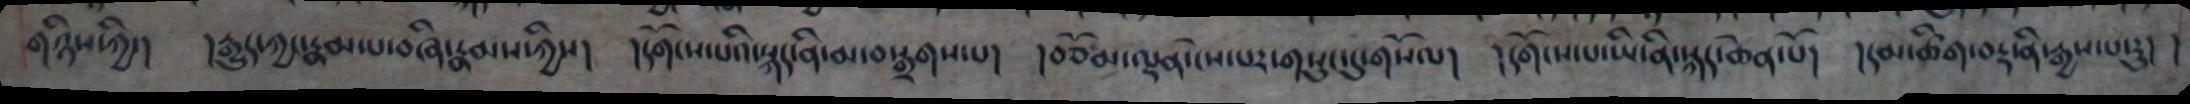གཉིས་ཀྱི་། །རྒྱུད་ཀྱང་རྣམ་པ་བཞི་རྣམས་ཀྱིས། །དགོངས་པའི་སྐད་ནི་མ་བསྒྲགས་པ། །བཅོམ་ལྡན་ངེས་པར་གསུང་དུ་གསོལ། །དགོངས་པ་ཡི་ནི་སྐད་ཆེན་པོ། །དམ་ཚིག་བརྡ་ནི་རྒྱས་པ་རུ། །
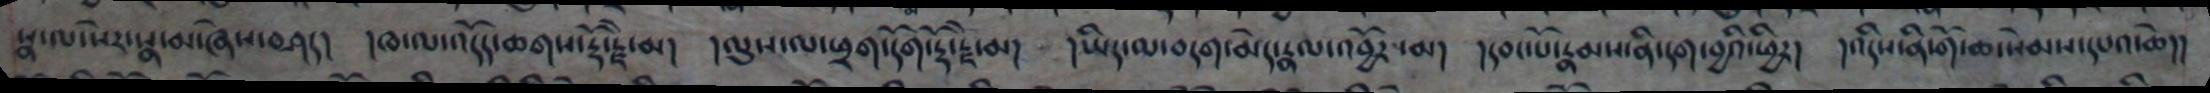སྣ་ལ་སེར་སྣ་མ་ཞེས་བཤད། །ཁ་ལ་འདོད་ཆགས་རྡོ་རྗེ་མ། །ལུས་ལ་ཕྲག་དོག་རྡོ་རྗེ་མ། །ཡིད་ལ་བདག་མེད་རྣལ་འབྱོར་མ། །དབང་པོ་རྣམས་ནི་དག་བྱའི་ཕྱིར། །འདིས་ནི་གོ་ཆ་སེམས་དཔའ་ཆེ།།
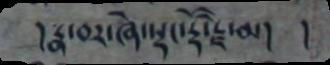།རྣ་བར་ཞེ་སྡང་རྡོ་རྗེ་མ། །
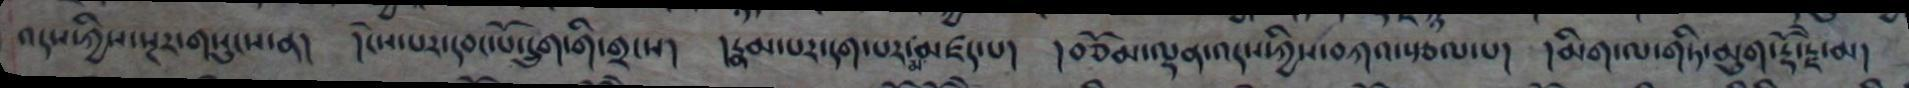འདས་ཀྱིས་སྔར་གསུངས་ན། །ངེས་པར་དབང་པོ་དྲུག་གི་གྲངས། །རྣམ་པར་དག་པར་མཛད་པ། །བཅོམ་ལྡན་འདས་ཀྱིས་བཀའ་སྩལ་པ། །མིག་ལ་གཏི་མུག་རྡོ་རྗེ་མ།
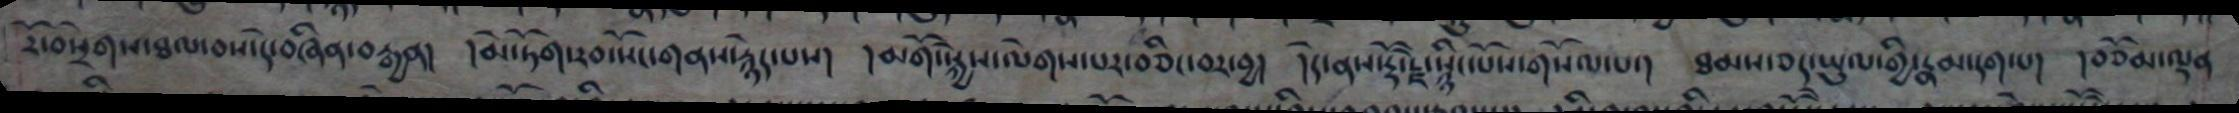རོ་བསྲེགས་ཐལ་བས་དེ་བཞིན་བརྒྱན། །མེ་ཏོག་རབ་སོང་གནས་རྙེད་པས། །མགོ་སྐྱེས་ལེགས་པར་བཅིང་བར་བྱ། །དེ་ནས་རྡོ་རྗེ་སྙིང་པོས་གསོལ་པ་། ཐམས་ཅད་ཡུལ་གྱི་རྣམ་དག་པ། །བཅོམ་ལྡན
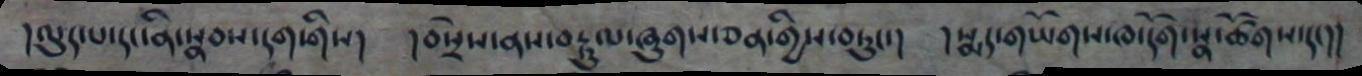།ལུད་པ་དང་ནི་སྣབས་དག་གིས། །བསྲེས་ནས་བརྟུལ་ཞུགས་ཅན་གྱིས་བཏུང་། །སྨད་གཡོགས་ཁ་དོག་སྣ་ཚོགས་དང་།།
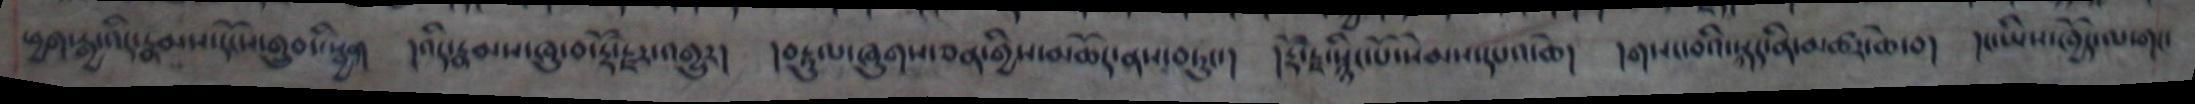ཕྱག་རྒྱ་འདི་རྣམས་དངོས་གྲུབ་སྦྱིན། །འདི་རྣམས་ཁུ་བ་རྡོ་རྗེར་འགྱུར། །བརྟུལ་ཞུགས་ཅན་གྱིས་མཆོད་ནས་བཏུང་། །རྡོ་རྗེ་སྙིང་པོ་སེམས་དཔའ་ཆེ། །གསང་བའི་སྐད་ནི་མཚར་ཆེ་བ། །ང་ཡིས་ཁྱོད་ལ་གང་
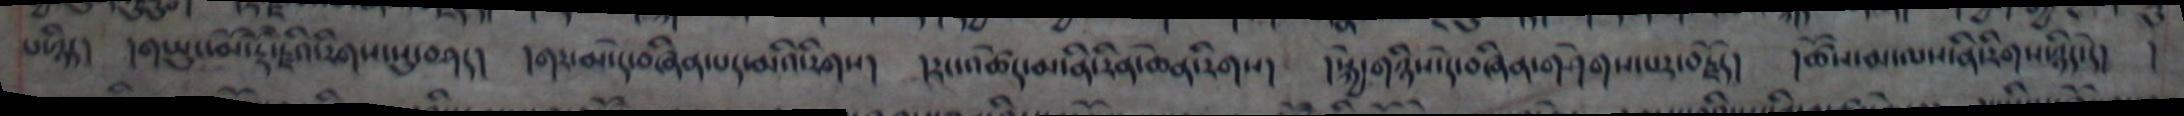པ་ཉིད། །གཡུང་མོ་རྡོ་རྗེའི་རིགས་སུ་བཤད། །གར་མ་དེ་བཞིན་པད་མའི་རིགས། །རང་འཚེད་མ་ནི་རིན་ཆེན་རིགས། །སྐྱེ་གཉིས་དེ་བཞིན་གཤེགས་པར་བརྗོད། །ཚོས་མ་ལས་ནི་རིགས་ཉིད་དེ། །
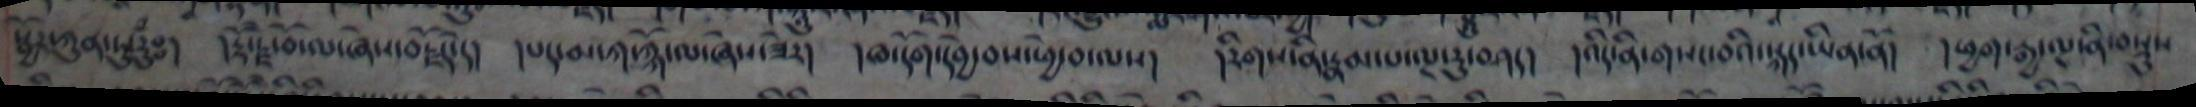སྦྱོར་ཀུན་ཏུ་རུཾཿ ། །རྡོ་རྗེ་བོ་ལ་ཞེས་བརྗོད་དེ། །པད་མ་ཀ་ཀྐོ་ལ་ཞེས་ཟེར། །ཁ་དོག་དབྱེ་བས་ཕྱེ་བ་ལས། །རིགས་ནི་རྣམ་པ་ལྔ་རུ་བཤད། །འདི་ནི་གསང་བའི་སྐད་ཡིན་ནོ། །ཕྱག་རྒྱ་ལྔ་ནི་བསྡུས
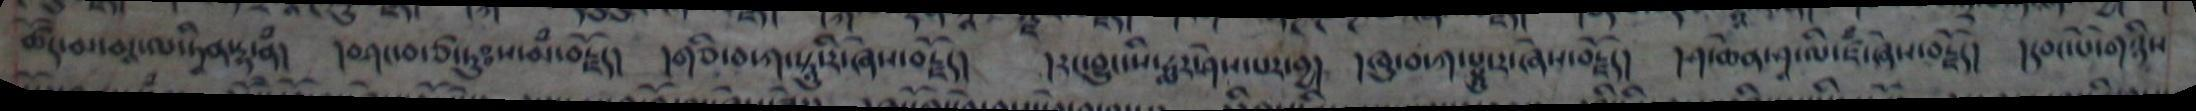ཚོད་མ་མཱ་ལ་ཏཱིན་དྷ་ནཾ། །བཤང་བ་ཙ་ཏུཿ ས་མཾ་བརྗོད། །གཅི་བ་ཀ་སྟཱུ་རི་ཞེས་བརྗོད། །རང་བྱུང་སི་ཧླར་ཤེས་པར་བྱ། །ཁུ་བ་ཀ་པཱུ་ར་ཞེས་བརྗོད། །ཤ་ཆེན་ཤཱ་མི་ཛཾ་ཞེས་བརྗོད། །དབང་པོ་གཉིས
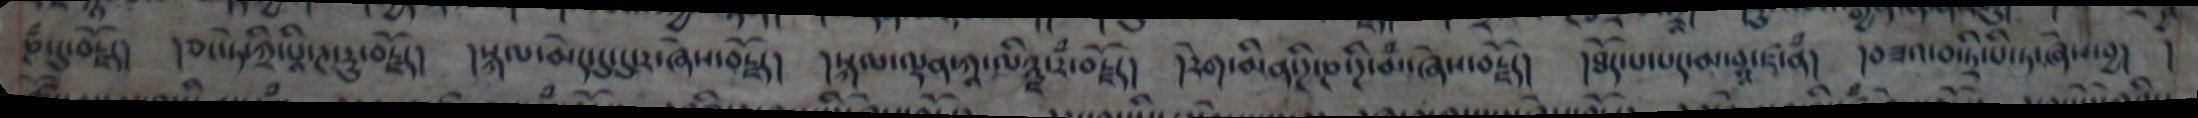ཎ་དུ་བརྗོད།   །ཅང་ཏེ་ཀྲི་པྰི་ཊ་རུ་བརྗོད།     དསྐལ་མེད་དུ་དུ་ར་ཞེས་བརྗོད།   །སྐལ་ལྡན་ཀྰ་ལིཉྫ་རཾ་བརྗོད།    ། རེག་མིན་ཌི་ཎ་ཌི་མཾ་ཞེས་བརྗོད།    །ཐོད་པ་པད་མ་བྰ་ཛ་ནཾ།      ། བཟའ་བ་ཏྲི་པི་ཏ་ཞེས་བྱ།   །
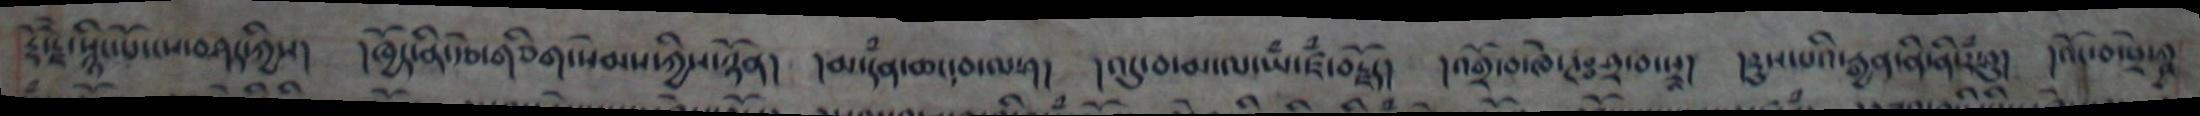རྡོ་རྗེ་སྙིང་པོ་ངས་བཤད་ཀྱིས། །ཁྱོད་ནི་རྩེ་གཅིག་སེམས་ཀྱིས་ཉོན། །མ་དཾན་ཆང་བ་ལ་ཤ། །འདུ་བ་མ་ལ་ཡྃ་ཛྃ་བརྗོད། །འགྲོ་བ་ཁར་ཊཿ ཤྲ་བ་སྲཱ། །རུས་པའི་རྒྱན་ནི་ནི་རཾ་ཤུ། །འོང་བ་སྲེ་ཀྴ
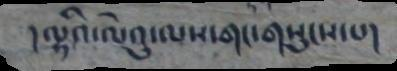།ལྷའི་ལེའུ་ལས་གང་གསུངས་པ།
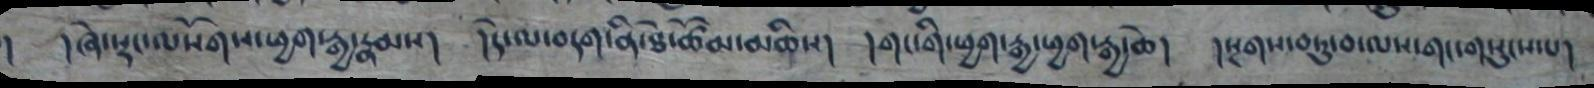། །ཞེ་སྡང་ལསོགས་ཕྱག་རྒྱ་རྣམས། །དེ་ལ་བདག་ནི་ཐེ་ཚོམ་མཆིས། །གང་གི་ཕྱག་རྒྱ་ཕྱག་རྒྱ་ཆེ། །སྔགས་བཏུ་བ་ལས་གང་གསུངས་པ།
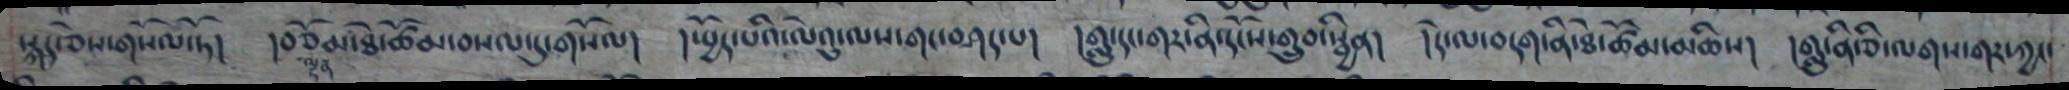སྐད་ཅེས་གསོལ་ཏོ།   །བཅོམ་ཐེ་ཚོམ་བསལ་དུ་གསོལ།    །སྤྱོད་པའི་ལེའུ་ལས་གང་བཤད་པ།    །གླུ་དང་གར་ནི་དངོས་གྲུབ་སྦྱིན།     །དེ་ལ་བདག་ནི་ཐེ་ཚོམ་མཆི་།     །གླུ་ནི་ཅི་ལགས་གར་ཀྱང་
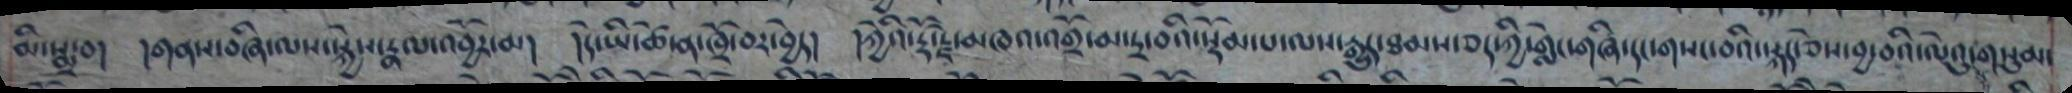མི་སྨྲ་བ། །གནས་བཞི་ལས་སྐྱེས་རྣལ་འབྱོར་མ། །དེ་ཡི་ཚེ་ན་ཁྲོ་བར་བྱེད། །ཀེུའི་རྡོ་རྗེ་མཁའ་འགྲོ་མ་དྲ་བའི་སྡོམ་པ་ལས་རྒྱུད་ཐམས་ཅད་ཀྱི་གླེང་གཞི་དང་གསང་བའི་སྐད་ཅེས་བྱ་བའི་ལེའུ་གསུམ་
